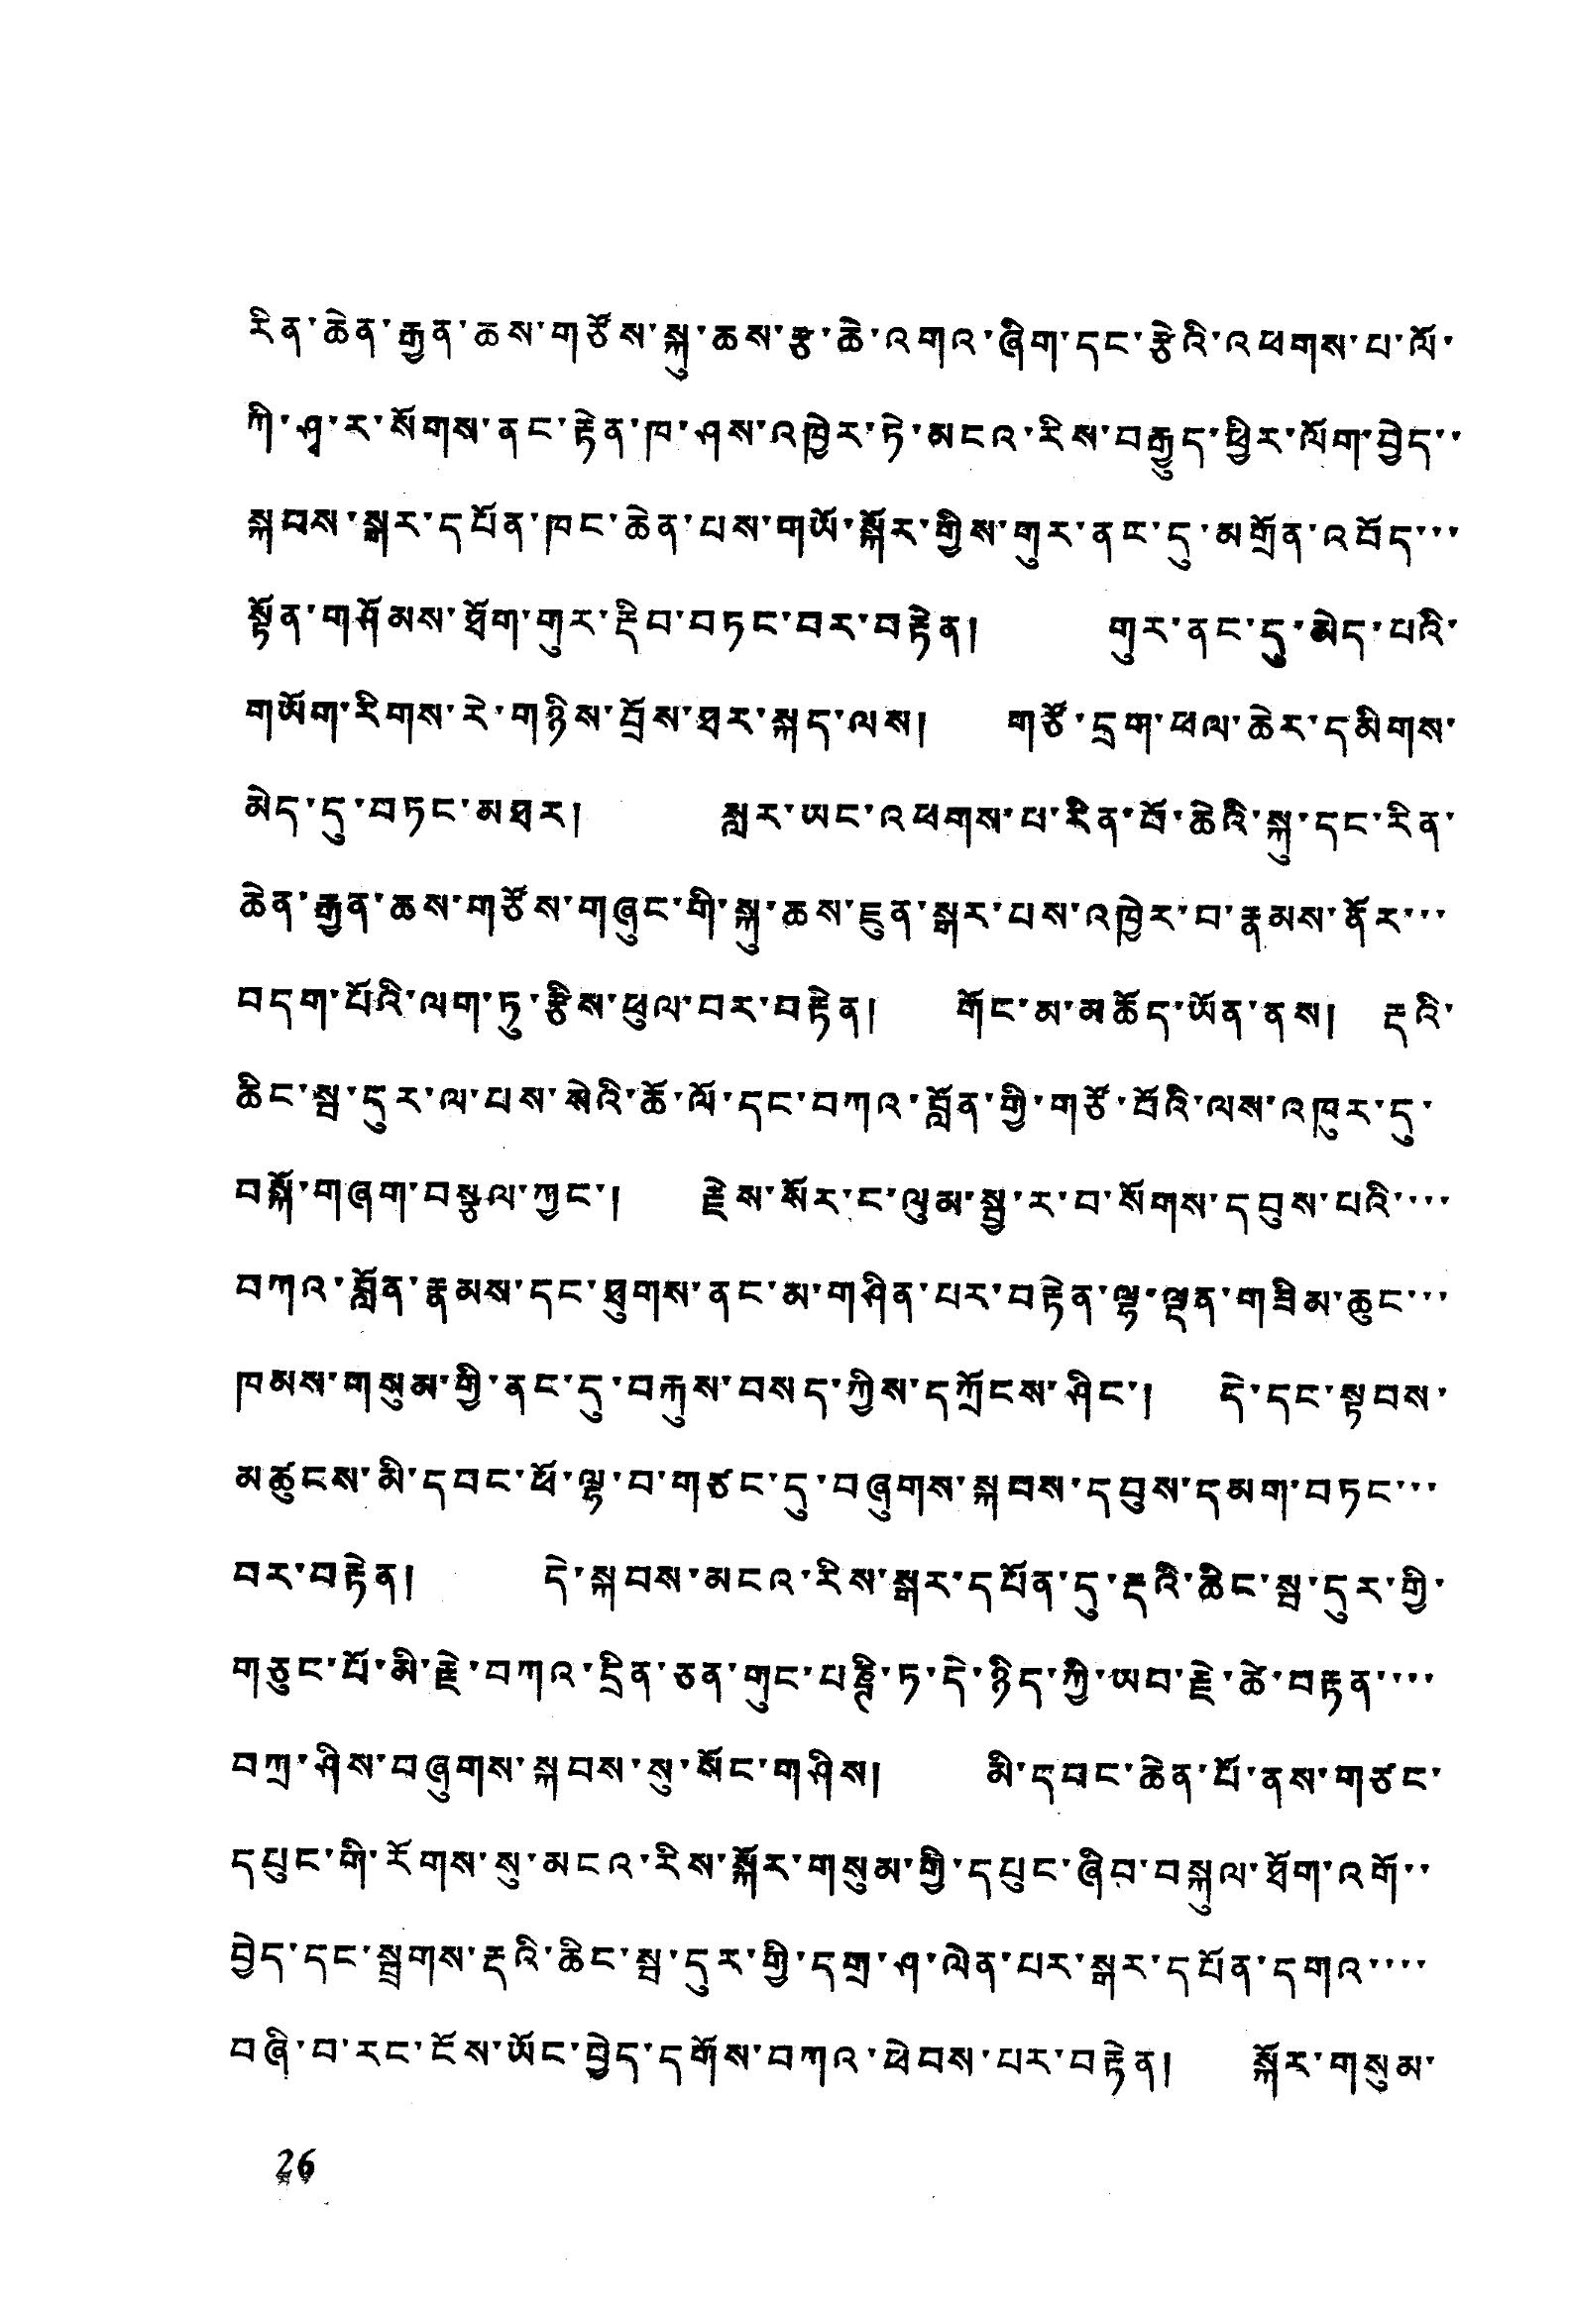རིན་ཆེན་རྒྱན་ཆས་གཙོས་སྐུ་ཆས་རྩ་ཆེ་འགའ་ཞིག་དང་རྩེའི་འཕགས་པ་ལོ་
ཀི་ཤྭ་ར་སོགས་ནང་རྟེན་ཁ་ཤས་འཁྱེར་ཏེ་མངའ་རིས་བརྒྱུད་ཕྱིར་ལོག་བྱེད་་
སྐབས་སྒར་དཔོན་ཁང་ཆེན་པས་གཡོ་སྐོར་གྱིས་གུར་ནང་དུ་མགྲོན་འབོད་་་
སྟོན་གཤོམས་ཐོག་གུར་རྡིབ་བཏང་བར་བརྟེན། གུར་ནང་དུ་མེད་པའི་
གཡོག་རིགས་རེ་གཉིས་བྲོས་ཐར་སྐད་ལས། གཙོ་དྲག་ཕལ་ཆེར་དམིགས་
མེད་དུ་བཏང་མཐར། སླར་ཡང་འཕགས་པ་རིན་པོ་ཆེའི་སྐུ་དང་རིན་
ཆེན་རྒྱན་ཆས་གཙོས་གཞུང་གི་སྐུ་ཆས་ཇུན་སྒར་པར་འཁྱེར་བ་རྣམས་ནོར་་་
བདག་པོའི་ལག་ཏུ་རྩིས་ཕུལ་བར་བརྟེན། གོང་མ་མཆོད་ཡོན་ནས། རྡའི་
ཆིང་སྦ་དུར་ལ་པས་སེའི་ཆོ་ལོ་དང་བཀའ་བློན་གྱི་གཙོ་བོའི་ལས་འཁུར་དུ་
བསྐོ་གཞག་བསྩལ་ཀྱང་། རྗེས་སོར་ང་ལུམ་སྦྱ་ར་བ་སོགས་དབུས་པའི་་་་
བཀའ་བློན་རྣམས་དང་ཐུགས་ནང་མ་གཤིན་པར་བརྟེན་ལྷ་ལྡན་གཟིམ་ཆུང་་་
ཁམས་གསུམ་གྱི་ནང་དུ་བརྐུས་བསད་ཀྱིས་དཀྲོངས་ཤིང་། དེ་དང་སྟབས་
མཚུངས་མི་དབང་ཕོ་ལྷ་བ་གཙང་དུ་བཞུགས་སྐབས་དབུས་དམག་བཏང་་་
བར་བརྟེན། དེ་སྐབས་མངའ་རིས་སྒར་དཔོན་དུ་རྡའི་ཆིང་སྦ་དུར་གྱི་
གཅུང་པོ་མི་རྗེ་བཀའ་དྲིན་ཅན་གུང་པཎྚི་ཏ་དེ་ཉིད་ཀྱི་ཡབ་རྗེ་ཚེ་བརྟན་་་་
བཀྲ་ཤིས་བཞུགས་སྐབས་སུ་སོངས་གཤིས། མི་དབང་ཆེན་པོ་ནས་གཙང་
དཔུང་གི་རོགས་སུ་མངའ་རིས་སྐོར་གསུམ་གྱི་དཔུང་ཞིབ་བསྐུལ་ཐོག་འགོ་་
བྱེད་དང་སྦྲགས་རྡའི་ཆིང་སྦ་དུར་གྱི་དགྲ་ཤ་ལེན་པར་སྒར་དཔོན་དགའ་་་་
བཞི་བ་རང་ངོས་ཡོང་བྱེད་དགོས་བཀའ་ཕེབས་པར་བརྟེན། སྐོར་གསུམ་
26
